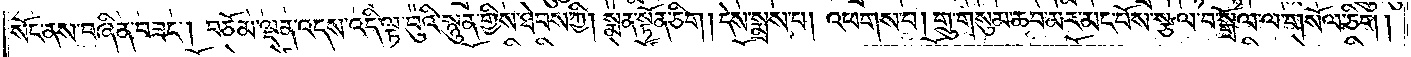སོང་ནས་བཞིན་བཟང༌། བཅོམ་ལྡན་འདས་འདི་ལྟ་བུའི་སྙུན་གྱིས་ཐེབས་ཀྱི། སྨན་སྟོན་ཅིག །དེས་སྨྲས་པ། འཕགས་པ། གྲུ་གསུམ་ཆ་བ་མར་མང་པོས་སྩལ་བ་སྒྲོལ་ལ་གསོལ་ཅིག།
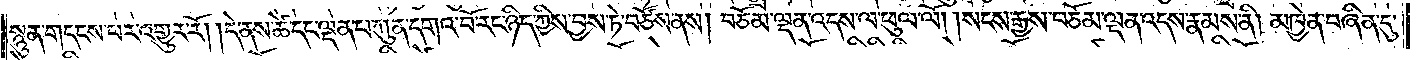སྙུན་གདངས་པར་འགྱུར་རོ། །དེ་ནས་ཚེ་དང་ལྡན་པ་ཀུན་དགའ་བོ་རང་ཉིད་ཀྱིས་བྱས་ཏེ་བཙོས་ནས། བཅོམ་ལྡན་འདས་ལ་ཕུལ་ལོ། །སངས་རྒྱས་བཅོམ་ལྡན་འདས་རྣམས་ནི། མཁྱེན་བཞིན་དུ་
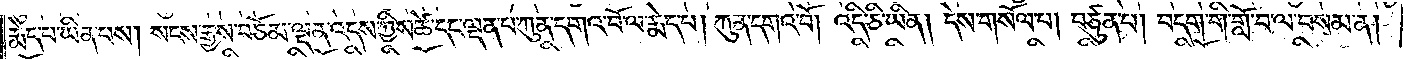རྨེད་པ་ཡིན་པས། སངས་རྒྱས་བཅོམ་ལྡན་འདས་ཀྱིས་ཚེ་དང་ལྡན་པ་ཀུན་དགའ་བོ་ལ་རྨེད་པ། ཀུན་དགའ་བོ། འདི་ཅི་ཡིན། དེས་གསོལ་པ། བཙུན་པ། བདག་གི་གློ་བ་ལ་བསམ་ན།
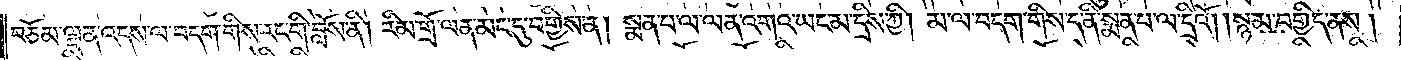བཅོམ་ལྡན་འདས་ལ་བདག་གིས་རང་གི་བློས་ནི། རིམ་གྲོ་ལན་མང་དུ་བགྱིས་ན། སྨན་པ་ལ་ལན་འགའ་ཡང་མ་དྲིས་ཀྱི། མ་ལ་བདག་གིས་ད་ནི་སྨན་པ་ལ་དྲིའོ། །སྙམ་བགྱིད་ནས།
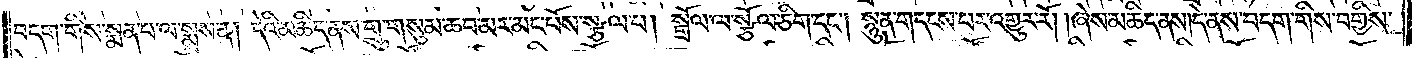བདག་གིས་སྨན་པ་ལ་སྨྲས་ན། དེའི་མཆིད་ནས་གྲུ་གསུམ་ཆབ་མར་མང་པོས་སྩལ་པ། སྒྲོལ་ལ་སྩོལ་ཅིག་དང༌། སྙུན་གདངས་པར་འགྱུར་རོ། །ཞེས་མཆིད་ནས། དེ་ནས་བདག་གིས་བགྱིས་
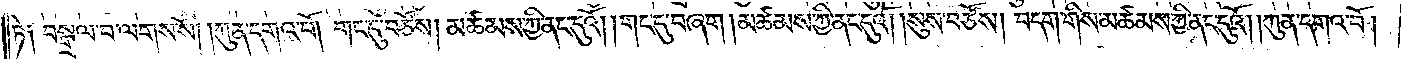ཏེ༑ བསྒྲལ་བ་ལགས་སོ། །ཀུན་དགའ་བོ། གང་དུ་བཙོས། མཚམས་ཀྱི་ནང་དུའོ། །གང་དུ་བཞག །མཚམས་ཀྱི་ནང་དུའོ། །སུས་བཙོས། བདག་གིས་མཚམས་ཀྱི་ནང་དུའོ། །ཀུན་དགའ་བོ།
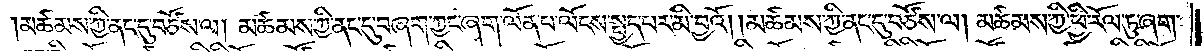།མཚམས་ཀྱི་ནང་དུ་བཙོས་ལ། མཚམས་ཀྱི་ནང་དུ་བཞག་ཀྱང་ཞག་ལོན་པ་ལོངས་སྤྱད་པར་མི་བྱའོ། །མཚམས་ཀྱི་ནང་དུ་བཙོས་ལ། མཚམས་ཀྱི་ཕྱི་རོལ་ཏུ་ཞག་
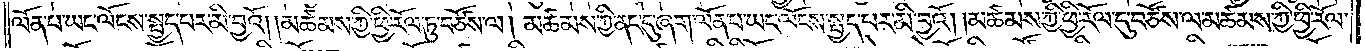ལོན་པ་ཡང་ལོངས་སྤྱད་པར་མི་བྱའོ། །མཚམས་ཀྱི་ཕྱི་རོལ་ཏུ་བཙོས་ལ། མཚམས་ཀྱི་ནང་དུ་ཞག་ལོན་པ་ཡང་ལོངས་སྤྱད་པར་མི་བྱའོ། །མཚམས་ཀྱི་ཕྱི་རོལ་ཏུ་བཙོས་ལ་མཚམས་ཀྱི་ཕྱི་རོལ་
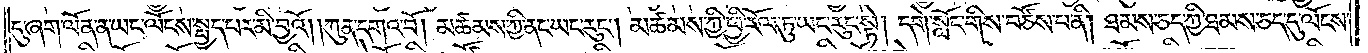དུ་ཞག་ལོན་ན་ཡང་ལོངས་སྤྱད་པར་མི་བྱའོ། །ཀུན་དགའ་བོ། མཚམས་ཀྱི་ནང་ཡང་རུང༌། མཚམས་ཀྱི་ཕྱི་རོལ་ཏུ་ཡང་རུང་སྟེ། དགེ་སློང་གིས་བཙོས་པ་ནི། ཐམས་ཅད་ཀྱི་ཐམས་ཅད་དུ་ལོངས་
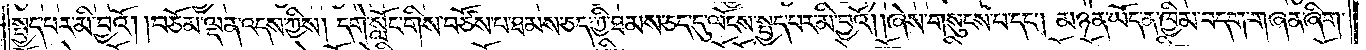སྤྱད་པར་མི་བྱའོ། །བཅོམ་ལྡན་འདས་ཀྱིས། དགེ་སློང་གིས་བཙོས་པ་ཐམས་ཅད་ཀྱི་ཐམས་ཅད་དུ་ལོངས་སྤྱད་པར་མི་བྱའོ། །ཞེས་གསུངས་པ་དང༌། མཉན་ཡོད་ན་ཁྱིམ་བདག་གཞན་ཞིག་
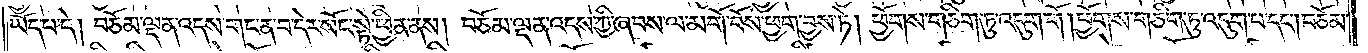ཡོད་པ་དེ། བཅོམ་ལྡན་འདས་གང་ན་བ་དེར་སོང་སྟེ་ཕྱིན་ནས། བཅོམ་ལྡན་འདས་ཀྱི་ཞབས་ལ་མགོ་བོས་ཕྱག་བྱས་ཏེ། ཕྱོགས་གཅིག་ཏུ་འདུག་གོ། །ཕྱོགས་གཅིག་ཏུ་འདུག་པ་དང༌། བཅོམ་
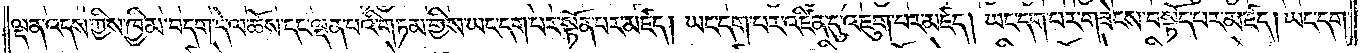ལྡན་འདས་ཀྱིས་ཁྱིམ་བདག་དེ་ལ་ཆོས་དང་ལྡན་པའི་གཏམ་གྱིས་ཡང་དག་པར་སྟོན་པར་མཛད། ཡང་དག་པར་འཛིན་དུ་འཇུག་པར་མཛད། ཡང་དག་པར་གཟེངས་བསྟོད་པར་མཛད། ཡང་དག་
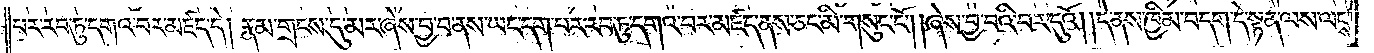པར་རབ་ཏུ་དགའ་བར་མཛད་དེ། རྣམ་གྲངས་དུ་མར་ཞེས་བྱ་བ་ནས་ཡང་དག་པར་རབ་ཏུ་དགའ་བར་མཛད་ནས་ཅང་མི་གསུང་ངོ༌། །ཞེས་བྱ་བའི་བར་དུའོ། །དེ་ནས་ཁྱིམ་བདག་དེ་སྟན་ལས་ལངས་
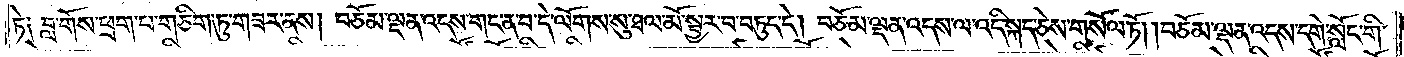ཏེ༑ བླ་གོས་ཕྲག་པ་གཅིག་ཏུ་གཟར་ནས། བཅོམ་ལྡན་འདས་གང་ན་བ་དེ་ལོགས་སུ་ཐལ་མོ་སྦྱར་བ་བཏུད་དེ། བཅོམ་ལྡན་འདས་ལ་འདི་སྐད་ཅེས་གསོལ་ཏོ། །བཅོམ་ལྡན་འདས་དགེ་སློང་གི་
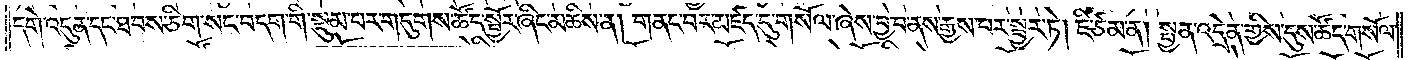དགེ་འདུན་དང་ཐབས་ཅིག་སང་བདག་གི་སྡུམ་པར་གདུགས་ཚོད་སྦྱོར་ཞིང་མཆིས་ན། གནང་བར་མཛད་དུ་གསོལ་ཞེས་བྱ་བ་ནས་རྒྱས་པར་སྦྱར་ཏེ། ཇི་ཙམ་ན། སྤྱན་འདྲེན་གྱིས་དུས་ཚོད་གསོལ་
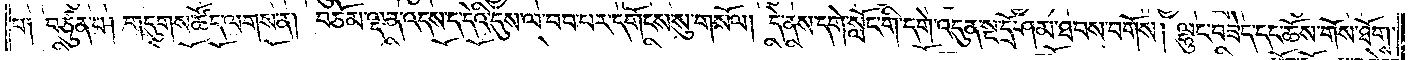པ༑ བཙུན་པ། གདུགས་ཚོད་ལགས་ན། བཅོམ་ལྡན་འདས་ད་དེའི་དུས་ལ་བབ་པར་དགོངས་སུ་གསོལ། དེ་ནས་དགེ་སློང་གི་དགེ་འདུན་སྔ་དྲོ་ཤམ་ཐབས་བགོས། ལྷུང་བཟེད་དང་ཆོས་གོས་ཐོགས་
